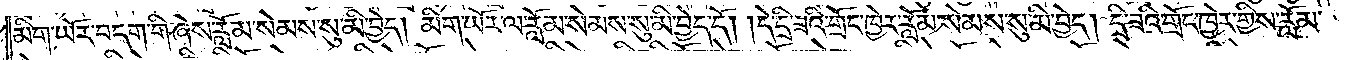མིག་ཡོར་བདག་གི་ཞེས་རློམ་སེམས་སུ་མི་བྱེད། མིག་ཡོར་ལ་རློམ་སེམས་སུ་མི་བྱེད་དོ། །དེ་དྲི་ཟའི་གྲོང་ཁྱེར་རློམ་སེམས་སུ་མི་བྱེད། དྲི་ཟའི་གྲོང་ཁྱེར་གྱིས་རློམ་
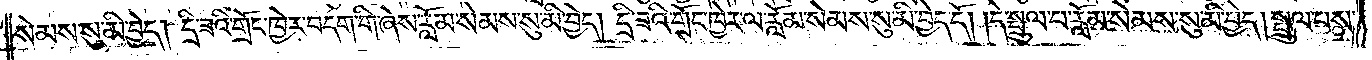སེམས་སུ་མི་བྱེད། དྲི་ཟའི་གྲོང་ཁྱེར་བདག་གི་ཞེས་རློམ་སེམས་སུ་མི་བྱེད། དྲི་ཟའི་གྲོང་ཁྱེར་ལ་རློམ་སེམས་སུ་མི་བྱེད་དོ། །དེ་སྤྲུལ་པ་རློམ་སེམས་སུ་མི་བྱེད། སྤྲུལ་པས་
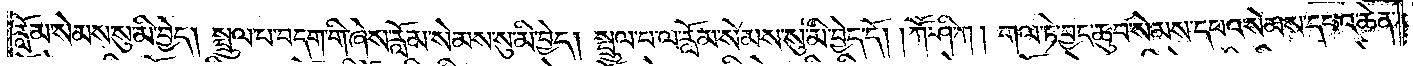རློམ་སེམས་སུ་མི་བྱེད། སྤྲུལ་པ་བདག་གི་ཞེས་རློམ་སེམས་སུ་མི་བྱེད། སྤྲུལ་པ་ལ་རློམ་སེམས་སུ་མི་བྱེད་དོ། །ཀཽ་ཤི་ཀ། གལ་ཏེ་བྱང་ཆུབ་སེམས་དཔའ་སེམས་དཔའ་ཆེན་
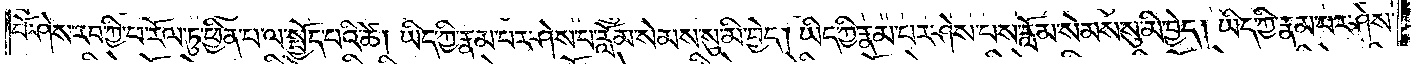པོ་ཤེས་རབ་ཀྱི་ཕ་རོལ་ཏུ་ཕྱིན་པ་ལ་སྤྱོད་པའི་ཚེ། ཡིད་ཀྱི་རྣམ་པར་ཤེས་པ་རློམ་སེམས་སུ་མི་བྱེད། ཡིད་ཀྱི་རྣམ་པར་ཤེས་པས་རློམ་སེམས་སུ་མི་བྱེད། ཡིད་ཀྱི་རྣམ་པར་ཤེས་
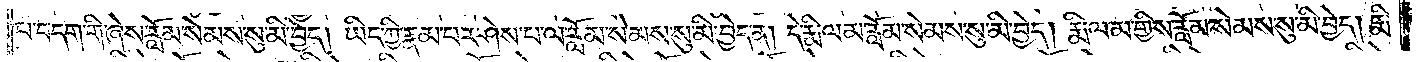པ་བདག་གི་ཞེས་རློམ་སེམས་སུ་མི་བྱེད། ཡིད་ཀྱི་རྣམ་པར་ཤེས་པ་ལ་རློམ་སེམས་སུ་མི་བྱེད་ན། དེ་རྨི་ལམ་རློམ་སེམས་སུ་མི་བྱེད། རྨི་ལམ་གྱིས་རློམ་སེམས་སུ་མི་བྱེད། རྨི་
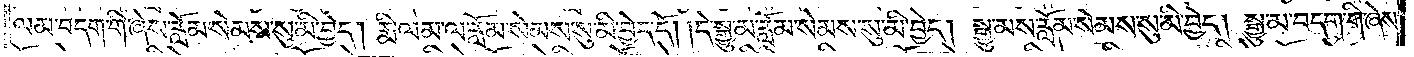ལམ་བདག་གི་ཞེས་རློམ་སེམས་སུ་མི་བྱེད། རྨི་ལམ་ལ་རློམ་སེམས་སུ་མི་བྱེད་དོ། །དེ་སྒྱུ་མ་རློམ་སེམས་སུ་མི་བྱེད། སྒྱུ་མས་རློམ་སེམས་སུ་མི་བྱེད། སྒྱུ་མ་བདག་གི་ཞེས་
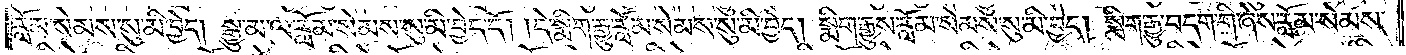རློམ་སེམས་སུ་མི་བྱེད། སྒྱུ་མ་ལ་རློམ་སེམས་སུ་མི་བྱེད་དོ། །དེ་སྨིག་རྒྱུ་རློམ་སེམས་སུ་མི་བྱེད། སྨིག་རྒྱུས་རློམ་སེམས་སུ་མི་བྱེད། སྨིག་རྒྱུ་བདག་གི་ཞེས་རློམ་སེམས་
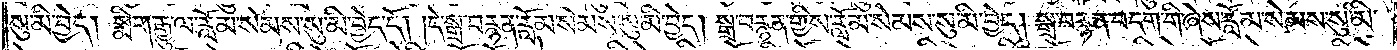སུ་མི་བྱེད། སྨིག་རྒྱུ་ལ་རློམ་སེམས་སུ་མི་བྱེད་དོ། །དེ་སྒྲ་བརྙན་རློམ་སེམས་སུ་མི་བྱེད། སྒྲ་བརྙན་གྱིས་རློམ་སེམས་སུ་མི་བྱེད། སྒྲ་བརྙན་བདག་གི་ཞེས་རློམ་སེམས་སུ་མི་
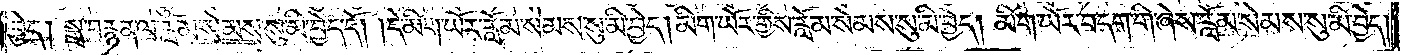བྱེད། སྒྲ་བརྙན་ལ་རློམ་སེམས་སུ་མི་བྱེད་དོ། །དེ་མིག་ཡོར་རློམ་སེམས་སུ་མི་བྱེད། མིག་ཡོར་གྱིས་རློམ་སེམས་སུ་མི་བྱེད། མིག་ཡོར་བདག་གི་ཞེས་རློམ་སེམས་སུ་མི་བྱེད།
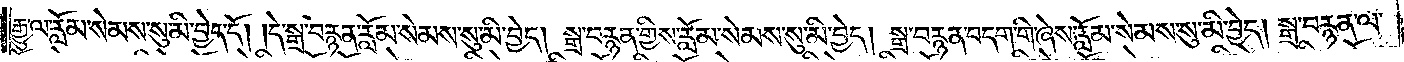རྒྱུ་ལ་རློམ་སེམས་སུ་མི་བྱེད་དོ། །དེ་སྒྲ་བརྙན་རློམ་སེམས་སུ་མི་བྱེད། སྒྲ་བརྙན་གྱིས་རློམ་སེམས་སུ་མི་བྱེད། སྒྲ་བརྙན་བདག་གི་ཞེས་རློམ་སེམས་སུ་མི་བྱེད། སྒྲ་བརྙན་ལ་
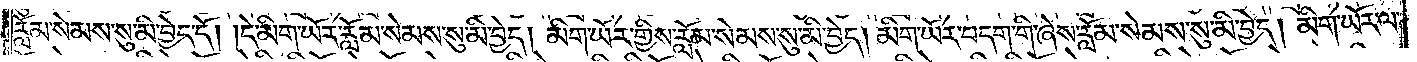རློམ་སེམས་སུ་མི་བྱེད་དོ། །དེ་མིག་ཡོར་རློམ་སེམས་སུ་མི་བྱེད། མིག་ཡོར་གྱིས་རློམ་སེམས་སུ་མི་བྱེད། མིག་ཡོར་བདག་གི་ཞེས་རློམ་སེམས་སུ་མི་བྱེད། མིག་ཡོར་ལ་
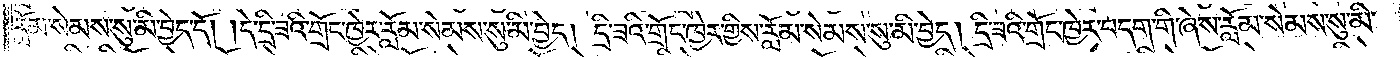རློམ་སེམས་སུ་མི་བྱེད་དོ། །དེ་དྲི་ཟའི་གྲོང་ཁྱེར་རློམ་སེམས་སུ་མི་བྱེད། དྲི་ཟའི་གྲོང་ཁྱེར་གྱིས་རློམ་སེམས་སུ་མི་བྱེད། དྲི་ཟའི་གྲོང་ཁྱེར་བདག་གི་ཞེས་རློམ་སེམས་སུ་མི་
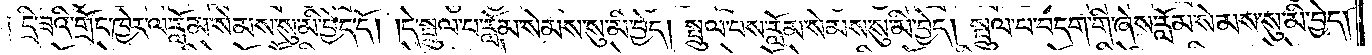བྱེད། དྲི་ཟའི་གྲོང་ཁྱེར་ལ་རློམ་སེམས་སུ་མི་བྱེད་དོ། །དེ་སྤྲུལ་པ་རློམ་སེམས་སུ་མི་བྱེད། སྤྲུལ་པས་རློམ་སེམས་སུ་མི་བྱེད། སྤྲུལ་པ་བདག་གི་ཞེས་རློམ་སེམས་སུ་མི་བྱེད།
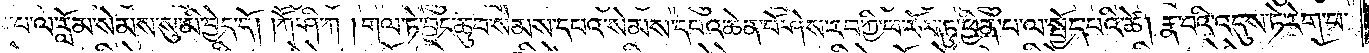པ་ལ་རློམ་སེམས་སུ་མི་བྱེད་དོ། །ཀཽ་ཤི་ཀ། གལ་ཏེ་བྱང་ཆུབ་སེམས་དཔའ་སེམས་དཔའ་ཆེན་པོ་ཤེས་རབ་ཀྱི་ཕ་རོལ་ཏུ་ཕྱིན་པ་ལ་སྤྱོད་པའི་ཚེ། རྣ་བའི་འདུས་ཏེ་རེག་པ་
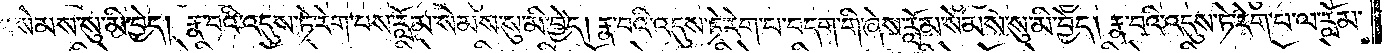རློམ་སེམས་སུ་མི་བྱེད། རྣ་བའི་འདུས་ཏེ་རེག་པས་རློམ་སེམས་སུ་མི་བྱེད། རྣ་བའི་འདུས་ཏེ་རེག་པ་བདག་གི་ཞེས་རློམ་སེམས་སུ་མི་བྱེད། རྣ་བའི་འདུས་ཏེ་རེག་པ་ལ་རློམ་
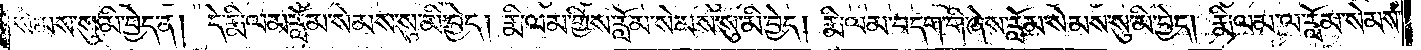སེམས་སུ་མི་བྱེད་ན། དེ་རྨི་ལམ་རློམ་སེམས་སུ་མི་བྱེད། རྨི་ལམ་གྱིས་རློམ་སེམས་སུ་མི་བྱེད། རྨི་ལམ་བདག་གི་ཞེས་རློམ་སེམས་སུ་མི་བྱེད། རྨི་ལམ་ལ་རློམ་སེམས་
